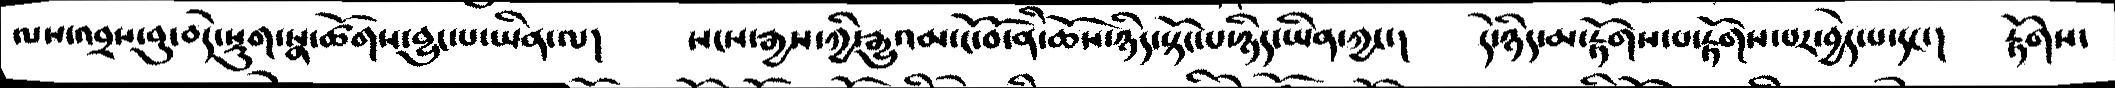ལས་འབྲས་བུ་བདེ་སྡུག་སྣ་ཚོགས་བྱུང་པ་ཡིན་ལ།   སངས་རྒྱས་ཀྱི་རྒྱུའམ་ངོ་བོ་ནི་ཆོས་ཉིད་སྟོང་པ་ཉིད་ཡིན་ཀྱང་།    དེ་ཉིད་མ་རྟོགས་པ་རྟོགས་པར་བྱེད་པ་དང་།    རྟོགས་
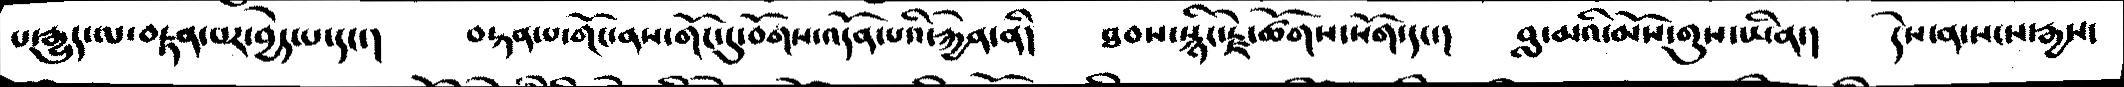པ་རྒྱུད་ལ་བརྟན་པར་བྱེད་པ་དང་།  བརྟན་པ་གོང་ནས་གོང་དུ་བོགས་འདོན་པའི་རྐྱེན་ནི།  ཐབས་སྙིང་རྗེ་ཚོགས་སོག་དང་།  བླ་མའི་མོས་གུས་ཡིན་།  དེས་ན་སངས་རྒྱས་
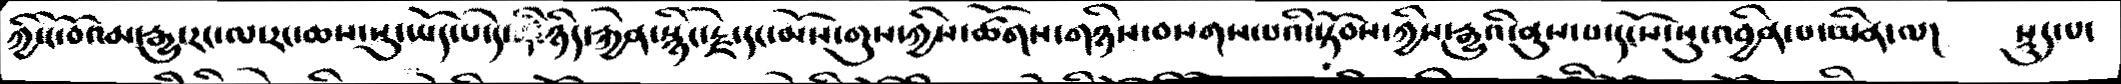ཀྱི་ངོ་བོའམ་རྒྱུ་རང་ལ་རང་ཆས་སུ་ཡོད་པ་དེ་  ཉིད་རྐྱེན་སྙིང་རྗེ་དང་མོས་གུས་ཀྱིས་ཚོགས་གཉིས་བསགས་པའི་སྟོབས་ཀྱིས་རྒྱུའི་ནུས་པ་དངོས་སུ་འབྱིན་པ་ཡིན་ལ།  སྡུད་པ་
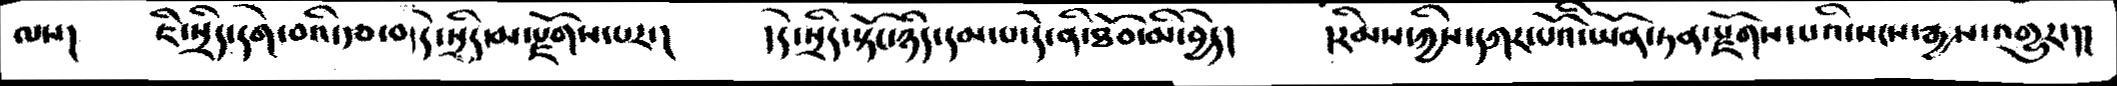ལས།  ཇི་སྲིད་དགེ་བའི་རྩ་བ་དེ་སྲིད་མ་རྫོགས་པར་།  །དེ་སྲིད་སྟོང་ཉིད་དམ་པ་དེ་ནི་ཐོབ་མི་བྱེད།  །རིམས་ཀྱིས་དཀར་པོའི་ཡོན་ཏན་རྫོགས་པའི་སངས་རྒྱས་འགྱུར་།།
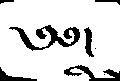༄༅།
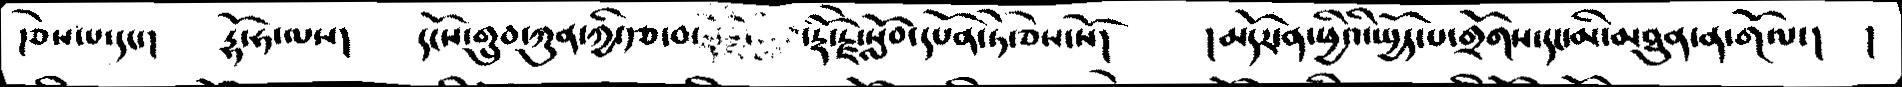།ཅེས་པ་དང་།  རྡོ་ཧ་ལས།  དངོས་གྲུབ་ཀུན་ཀྱི་རྩ་བ་  ་རྡོ་རྗེ་སློབ་དཔོན་ཏེ་ཅེས་སོ།  །མདོར་ན་ཕྱིའི་སྤྱོད་པ་གྲོགས་དང་མི་མཐུན་ན་གོལ་།  །
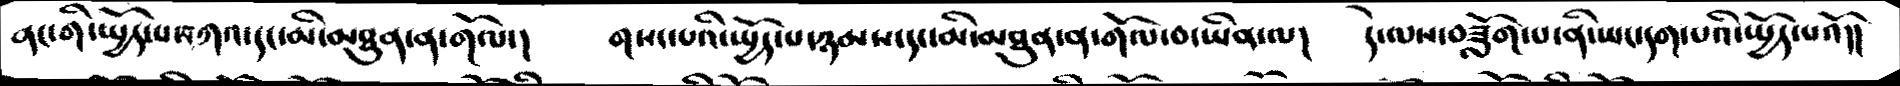ནང་གི་སྤྱོད་པ་བཀའ་དང་མི་མཐུན་ན་གོལ་།   གསང་པའི་སྤྱོད་པ་ཉམས་དང་མི་མཐུན་ན་གོལ་བ་ཡིན་ལ།    དེ་ལས་བཟློག་པ་ནི་ཡང་དག་པའི་སྤྱོད་པའོ།།
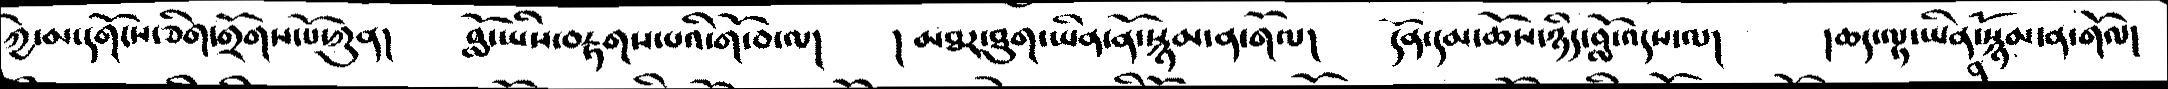ཀྱེ་མ་དགོངས་ཅིག་གྲོགས་པོ་ཀུན།   བློ་ཡིས་བརྟགས་པའི་གོ་བ་ལ།    །མཐར་ཐུག་ཡིན་ནོ་སྙམ་ན་གོལ།   དོན་དམ་ཆོས་ཉིད་བློ་འདས་ལ།    །ཆད་ལྟ་ཡིན་ནོ་སྙམ་ན་གོལ།
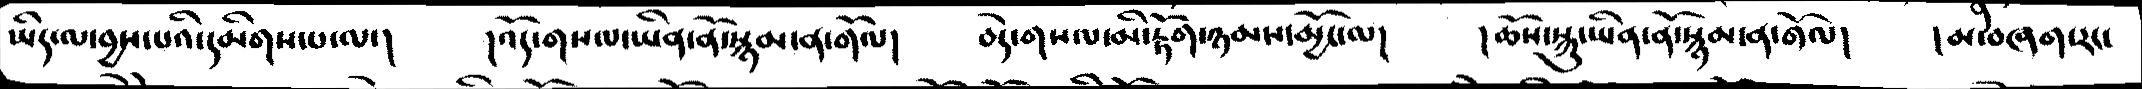ཡིད་ལ་བྱས་པའི་དམིགས་པ་ལ་།    །འོད་གསལ་ཡིན་ནོ་སྙམ་ན་གོལ།   བདེ་གསལ་མི་རྟོག་ཉམས་མྱོང་ལ།   །ཆོས་སྐུ་ཡིན་ནོ་སྙམ་ན་གོལ།   །མ་བཞག་རང་
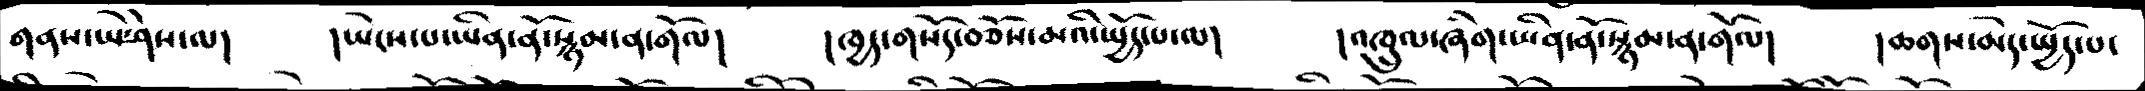གནས་ཡེ་ཤེས་ལ།   །ཡེངས་པ་ཡིན་ནོ་སྙམ་ན་གོལ།   །ཁྱད་གསོད་བཅོས་མའི་སྤྱོད་པ་ལ།    །འཁྲུལ་ཞིག་ཡིན་ནོ་སྙམ་ན་གོལ།      །ཆགས་མེད་སྤྱོད་པ་
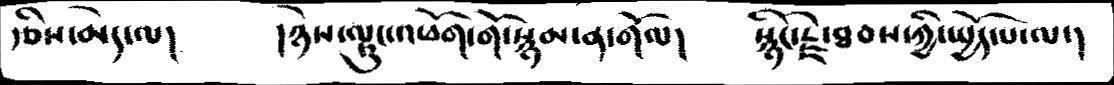རྩིས་མེད་ལ།    །ཉེས་ལྟུང་འཕོག་གོ་སྙམ་ན་གོལ།    སྙིང་རྗེ་ཐབས་ཀྱི་སྤྱོད་པ་ལ་།
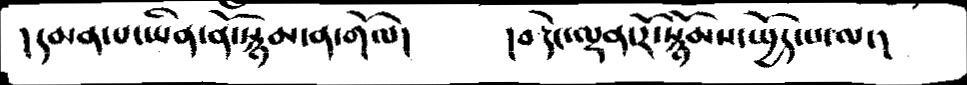།དམན་པ་ཡིན་ནོ་སྙམ་ན་གོལ།   །བརྡེང་ལྡན་རོ་སྙོམས་སྤྱོད་པ་ལ་།
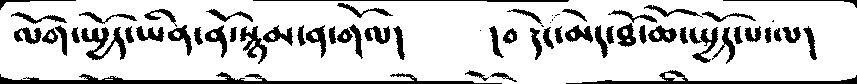ལོག་སྤྱོད་ཡིན་ནོ་སྙམ་ན་གོལ།   །བརྡེང་མེད་ཐོ་ཆོ་སྤྱོད་པ་ལ།
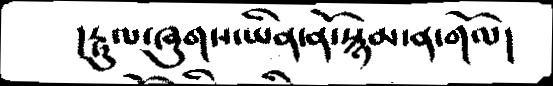།རྟུལ་ཞུགས་ཡིན་ནོ་སྙམ་ན་གོལ།
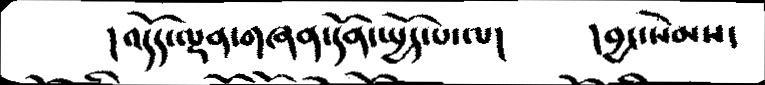། འདོད་ལྡན་གཞན་དོན་སྤྱོད་པ་ལ།  །བྱང་སེམས་
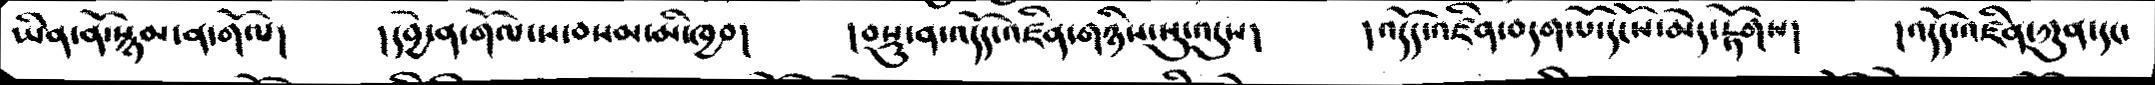ཡིན་ནོ་སྙམ་ན་གོལ།  །དབྱེ་ན་གོལ་ས་བསམ་མི་ཁྱབ།   །བསྡུ་ན་འདོད་འཛིན་གཉིས་སུ་འདུས།  །འདོད་འཛིན་བདག་པོ་དངོས་མེད་རྟོགས།  །འདོད་འཛིན་ཀུན་དང་
